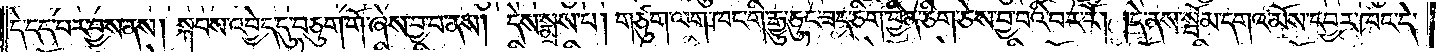དེ་དད་པར་བྱས་ནས། སྐབས་འབྱེད་དུ་བཅུག་གོ་ཞེས་བྱ་བ་ནས། དེས་སྨྲས་པ། གཙུག་ལག་ཁང་གི་རྒྱུ་ཅུང་ཟད་ཅིག་བྱིན་ཅིག་ཅེས་བྱ་བའི་བར་རོ། །དེ་ནས་སྦོམ་དགའ་མོས་དབྱར་ཁང་དེ་
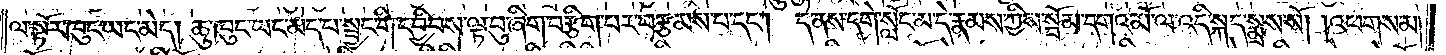ལ་སྟོར་ཁུང་ཡང་མེད། ཆུ་ཁུང་ཡང་མེད་པ་སྦྱང་གི་དབྱིབས་ལྟ་བུ་ཞིག་བརྩིག་པར་བརྩམས་པ་དང༌། དེ་ནས་དགེ་སློང་མ་དེ་རྣམས་ཀྱིས་སྦོམ་དགའ་མོ་ལ་འདི་སྐད་སྨྲས་སོ། །འཕགས་མ།
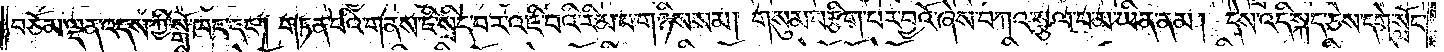བཅོམ་ལྡན་འདས་ཀྱི་སྒོ་ཁང་དང༌། གཏན་པའི་གནས་ཇི་སྲིད་པར་འཇི་བའི་རིམ་པ་གཉིས་སམ། གསུམ་བརྩིག་པར་བྱའོ་ཞེས་བཀའ་སྩལ་པ་མ་ཡིན་ནམ། དེས་འདི་སྐད་ཅེས་དགེ་སློང་
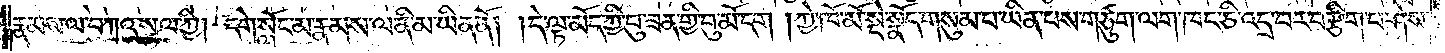རྣམས་ལ་བཀའ་སྩལ་ཀྱི། དགེ་སློང་མ་རྣམས་ལ་ནི་མ་ཡིན་ནོ། །དེ་ལྟ་མོད་ཀྱི་བུ་ཟན་གྱི་བུ་མོ་དག །ཀྱེ་ཁོ་མོ་སྡེ་སྣོད་གསུམ་པ་ཡིན་པས་གཙུག་ལག་ཁང་ཅི་འདྲ་བར་བརྩིག་པ་ཤེས་
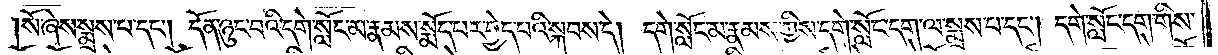སོ་ཞེས་སྨྲས་པ་དང༌། དོན་ཉུང་བའི་དགེ་སློང་མ་རྣམས་སྨོད་པར་བྱེད་པའི་སྐབས་དེ། དགེ་སློང་མ་རྣམས་ཀྱིས་དགེ་སློང་དག་ལ་སྨྲས་པ་དང༌། དགེ་སློང་དག་གིས་
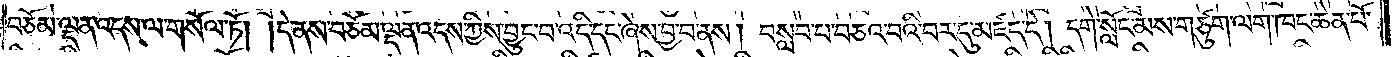བཅོམ་ལྡན་འདས་ལ་གསོལ་ཏོ། །དེ་ནས་བཅོམ་ལྡན་འདས་ཀྱིས་བྱུང་བ་འདི་དང་ཞེས་བྱ་བ་ནས། བསླབ་པ་བཅའ་བའི་བར་དུ་མཛད་དེ། དགེ་སློང་མས་གཙུག་ལག་ཁང་ཆེན་པོ་
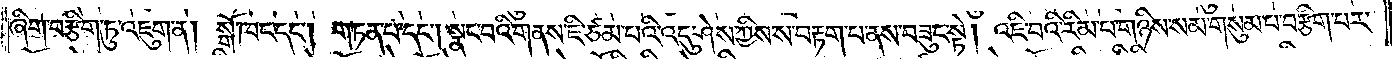ཞིག་བརྩིག་ཏུ་འཇུག་ན། སྒོ་ཁང་དང༌། གཏན་པ་དང༌། སྣང་བའི་གནས་ཇི་ཙམ་པའི་འདུ་ཤེས་ཀྱིས་ས་བརྟག་པ་ནས་བཟུང་སྟེ། འཇི་བའི་རིམ་པ་གཉིས་སམ་གསུམ་པ་བརྩིག་པར་
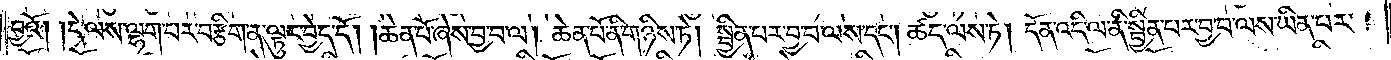བྱའོ། །དེ་ལས་ལྷག་པར་བརྩིག་ན་ལྟུང་བྱེད་དོ། །ཆེན་པོ་ཞེས་བྱ་བ་ལ། ཆེན་པོ་ནི་གཉིས་ཏེ། སྦྱིན་པར་བྱ་བ་ལས་དང༌། ཚད་ལས་ཏེ། དོན་འདི་ལ་ནི་སྦྱིན་པར་བྱ་བ་ལས་ཡིན་པར་
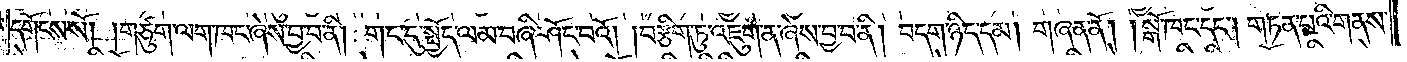དགོངས་སོ། །གཙུག་ལག་ཁང་ཞེས་བྱ་བ་ནི། གང་དུ་སྤྱོད་ལམ་བཞི་ཤོང་བའོ། །བརྩིག་ཏུ་འཇུག་ན་ཞེས་བྱ་བ་ནི། བདག་ཉིད་དམ། གཞན་ནོ། །སྒོ་ཁང་དང༌། གཏན་པའི་གནས་
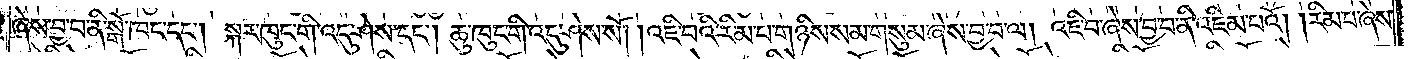ཞེས་བྱ་བ་ནི་སྒོ་ཁང་དང༌། སྐར་ཁུང་གི་འདུ་ཤེས་དང༌། ཆུ་ཁུང་གི་འདུ་ཤེས་སོ། །འཇི་བའི་རིམ་པ་གཉིས་སམ་གསུམ་ཞེས་བྱ་བ་ལ། འཇི་བ་ཞེས་བྱ་བ་ནི་འཇིམ་པའོ། །རིམ་པ་ཞེས་
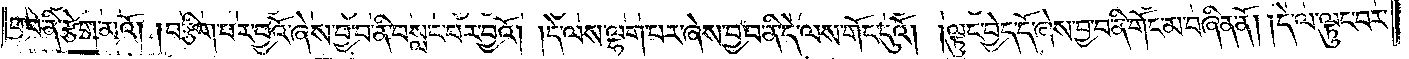བྱ་བ་ནི་རྩེག་མའོ། །བརྩིག་པར་བྱའོ་ཞེས་བྱ་བ་ནི་བསླང་བར་བྱའོ། །དེ་ལས་ལྷག་པར་ཞེས་བྱ་བ་ནི་དེ་ལས་གོང་དུའོ། །ལྟུང་བྱེད་དོ་ཞེས་བྱ་བ་ནི་གོང་མ་བཞིན་ནོ། །དེ་ལ་ལྟུང་བར་
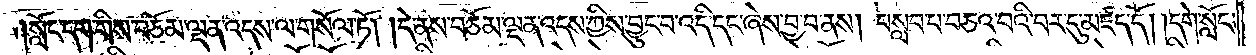སློང་དག་གིས་བཅོམ་ལྡན་འདས་ལ་གསོལ་ཏོ། །དེ་ནས་བཅོམ་ལྡན་འདས་ཀྱིས་བྱུང་བ་འདི་དང་ཞེས་བྱ་བ་ནས། བསླབ་པ་བཅའ་བའི་བར་དུ་མཛད་དོ། །དགེ་སློང་
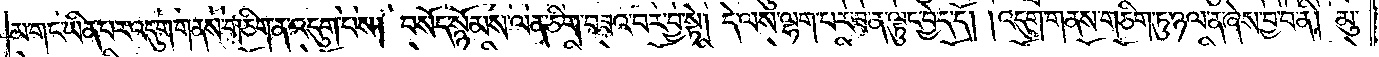མ་གང་ཡིན་པར་འདུག་གནས་གཅིག་ན་འདུག་པས། བསོད་སྙོམས་ལན་ཅིག་བཟའ་བར་བྱ་སྟེ། དེ་ལས་ལྷག་པར་ཟ་ན་ལྟུང་བྱེད་དོ། །འདུག་གནས་གཅིག་ཏུ་ཉལ་ན་ཞེས་བྱ་བ་ནི། མུ་
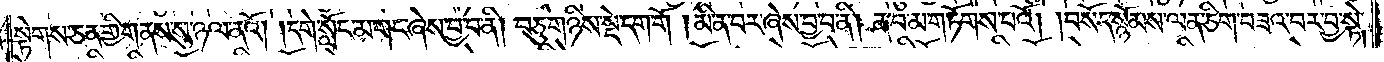སྟེགས་ཅན་གྱི་གནས་སུ་ཉལ་ནའོ། །དགེ་སློང་མ་གང་ཞེས་བྱ་བ་ནི། བཅུ་གཉིས་སྡེ་དག་གོ །མིན་བར་ཞེས་བྱ་བ་ནི། ན་བ་མ་གཏོགས་པའོ། །བསོད་སྙོམས་ལན་ཅིག་བཟའ་བར་བྱ་སྟེ།
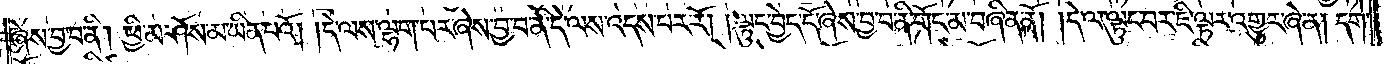ཞེས་བྱ་བ་ནི། ཕྱི་མ་ཤོས་མ་ཡིན་པའོ། །དེ་ལས་ལྷག་པར་ཞེས་བྱ་བ་ནི་དེ་ལས་འདས་པར་རོ། །ལྟུང་བྱེད་དོ་ཞེས་བྱ་བ་ནི་གོང་མ་བཞིན་ནོ། །དེ་ལ་ལྟུང་བར་ཇི་ལྟར་འགྱུར་ཞེ་ན། དགེ་
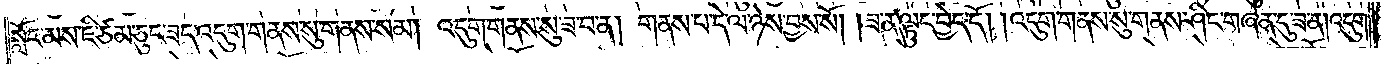སློང་མས་ཇི་ཙམ་ཅུང་ཟད་འདུག་གནས་སུ་གནས་སམ། འདུག་གནས་སུ་ཟ་བ་ན། གནས་པ་དེ་ལ་ཉེས་བྱས་སོ། །ཟ་ན་ལྟུང་བྱེད་དོ། །འདུག་གནས་སུ་གནས་ཤིང་གཞན་དུ་ཟ་ན། འདུག་
